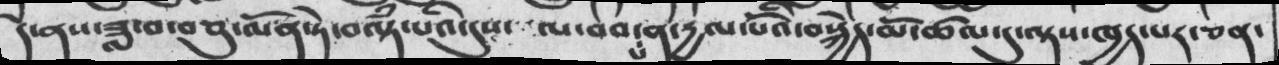དེ་ནས་ཟླ་བ་བཅུ་ལོན་ཏེ་བལྟཾ་པའི་དུས་ལ་ བབ་པ་ན་དྱལ་པོའི་བསྐྱེད་མོ་ཚལ་དུ་ལྟས་ཁྱད་པར་ཅན་
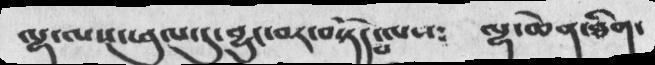ལྷ་ལས་ཕུལ་དུ་བྱུང་བར་བསྟོད་པ་ལས༴  ལྷ་ཆེན་ཐིག་
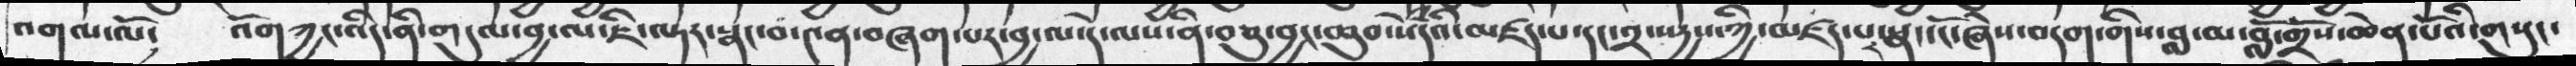འགལ་ལོ།   འོགཀྱངའདི་ནི་གདུལ་བྱ་ལ་ཇི་ལྟར་སྣང་བ་༤ན་བཞག་པར་བྱ་ལ་དེ་ལས་ནི་བཅུ་བྱང་ཆུབ་སེཾདའི་མཛད་པ་དང་༢་སདྱས་ཀྱི་མཛད་པར་སྣང་ངོ་ཞེས་བདག་གིས་བླ་མ་བློ་གྲོས་ཆེན་པོའི་གསུང་
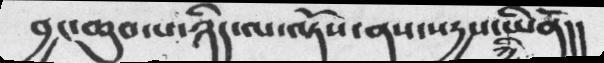བྱང་ཆུབ་པ་ཉིད་ལ་ལྟོས་ནས་སདྱས་ཀྱི་ཡིནོ།།
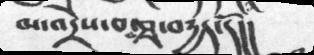མ་འདྲེས་པ་བཅྭ་བདྱད་དོ།།
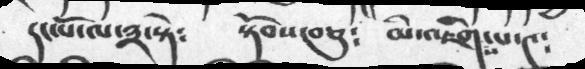དང་པོ་ལ་༣་སྟེ༴  སྟོབས་བཅུ༴  མི་འཇིགས་པ་༤༴
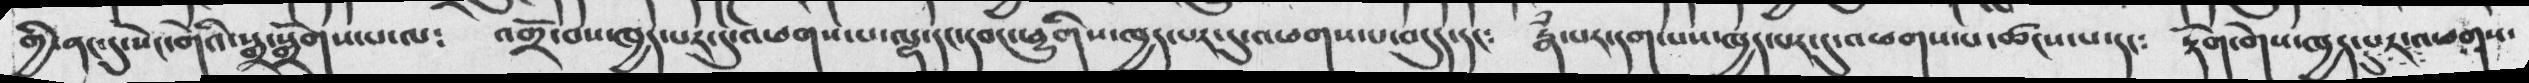གྱི་ནང་དུ་སེང་གེའི་སྒྲ་སྒྲོགས་པ་ལ༴  འགྲོ་བས་ཁྱད་པར་དུ་འཕགས་པ་ལྷ་དང་དབང་ཕྱུགིས་ཁྱད་པར་དུ་འཕགས་པ་བདུད་དང༴   རྣཾ་པར་དག་པས་ཁྱད་པར་དུ་འཕགས་པ་ཚངས་པ་དང༴   རྟོག་གེས་ཁྱད་པར་དུ་འཕགས་
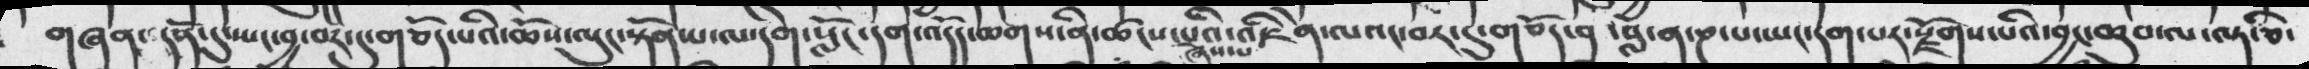གཞན་དོན་དུ་ཡང་བྱ་བར་དུ་གཅོད་པའི་ཆོས་ལུང་སྟོན་པ་ལ་དགེ་སློང་དག་འདོད་ཆགས་ནི་ཚངས་པའི་འཇིེན་ལའང་བར་དུ་གཅོད་ན་བླ་ན་ཎ་པ་ཡང་དག་པར་རྫོགས་པའི་བྱང་ཆུབ་ལ་ལྟ་ཅི་
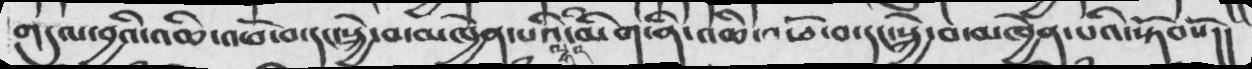གདུལ་བྱའི་འཆི་འཕོ་བ་དང་སྐྱེ་བ་མཁྱེན་པའི་ལྷའི་མིག་ནི་འཆི་འཕོ་བ་དང་སྐྱེ་བ་མཁྱེན་པའི་སྟོབསོ།།
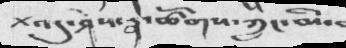+འདུ་ཤེས་སྣ་ཚོགས་ཀྱང་མི་
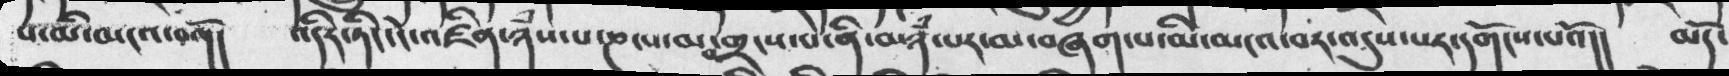པ་མི་མངའ་བའོ།།  འདིར་ཏིང་ངེ་འཛིན་ཉཾས་པ་ཎ་པ་མ་བགྲངས་པ་ནི་མཉཾ་པར་མ་བཞག་པ་མི་མངའ་བར་འདུས་པར་དགོངས་པའོ།།  མདོ་
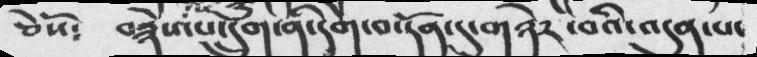ཅེསོ༴  བརྙེས་པ་དྲུག་ནི་དགེ་བ་དོན་དུ་གཉེར་བའི་འདུན་པ་
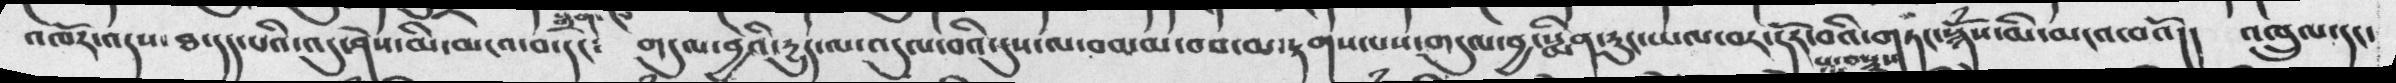འཁོར་འདས་ཐ་དད་པའི་འདུ་ཤེས་མི་མངའ་བ་དང༴  གདུལ་བྱའི་དྱུད་ལ་འདུལ་བའི་དུས་ལ་བབ་མ་བབ་མ་རྟགས་པས་གདུལ་བྱ་སྨིན་རུང་ཡལ་བར་དོར་བའི་གཏང་སྙོཾས་མི་མངའ་བའོ།།  འཁྲུལ་དང་
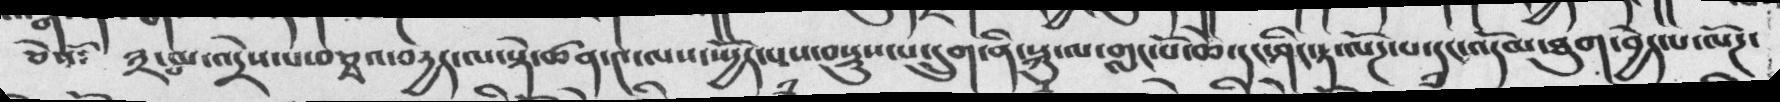ཅེསོ༴  ༣་པ་མ་འདྲེས་པ་བཅྭའ་བདྱད་ལ་སྡེ་ཚན་༤་ལས་སྤྱོད་པས་བསྡུས་པ་དྲུག་ནི་སྐུ་ལ་གླང་པོ་ཆེ་དང་ཤིང་རྟ་ལོཌ་པ་དང་འདོམ་ཐུག་བྱེད་པ་ལོཌ་
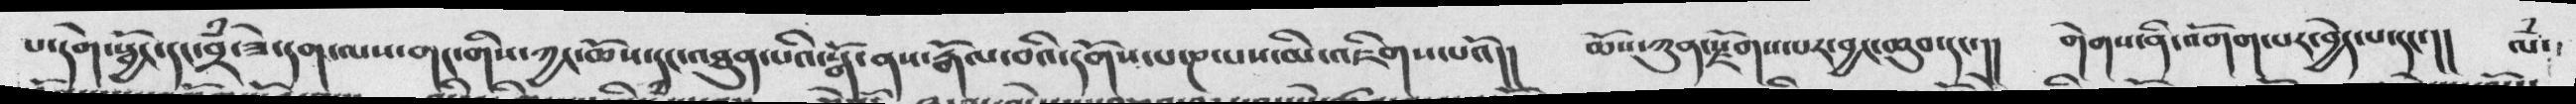པ་དགེ་སྦྱོང་དང་བྲཾ་ཟེ་དག་ལས་གང་གིས་ཀྱང་ཆོས་དང་འཐུན་པའི་སྒོ་ནས་རྒོལ་བའི་དགོས་པ་ཎ་པས་མི་འཇིགས་པའོ།།  ཆོས་ཀུན་རྫོགས་པར་བྱང་ཆུབ་དང་།།  གེགས་ནི་འགོག་པར་བྱེད་པ་དང་།།  ལཾ་
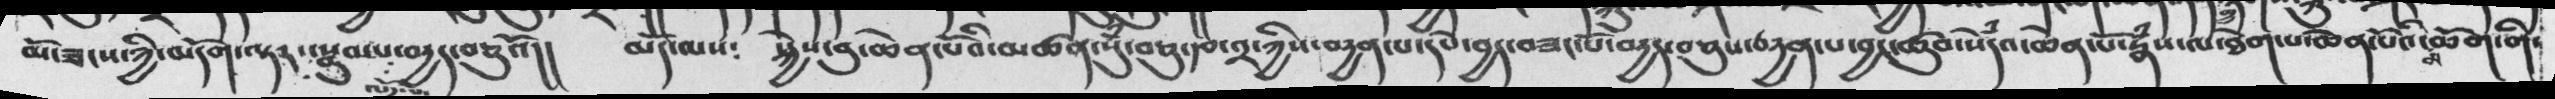མོ་ཟངས་ཀྱི་མདོག་ལྟར་སྣུམ་པ་བདྱད་བཅུའོ།།  མདོ་ལས༴  སྐྱེས་བུ་ཆེན་པོའི་མཚན་སུཾ་བཅུ་རྩ་༢་ཀྱིས་བདྱན་པ་དཔེ་བྱད་བཟང་པོ་བདྱད་བཅུས་བདྱན་པ་བྱང་ཆུབ་སེཾདའ་ཆེན་པོ་རྣཾས་ལ་ཐེག་པ་ཆེན་པོའི་མཆོག་གི་
